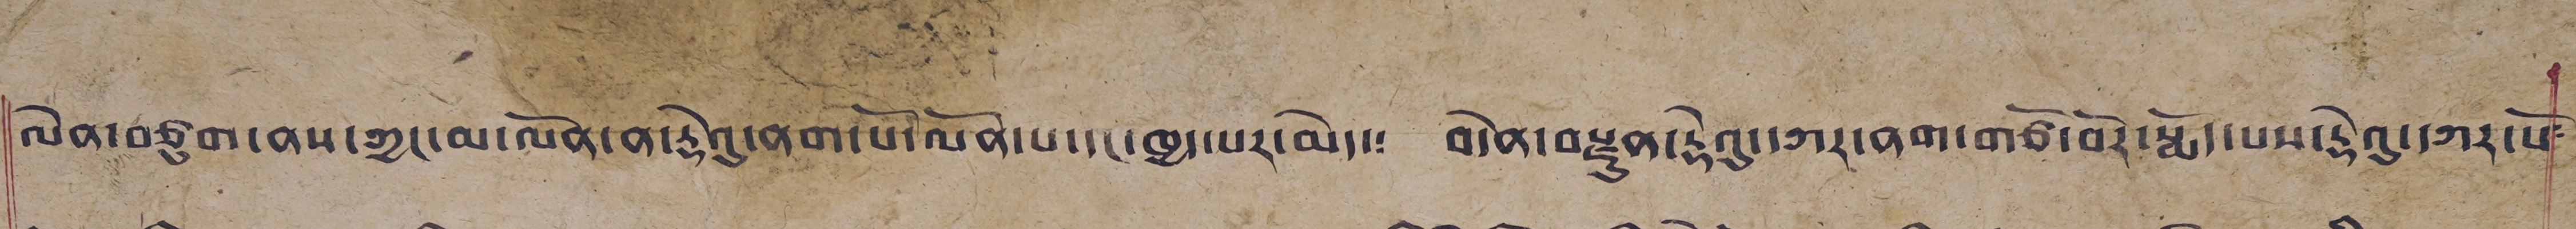ལེན་བཙུག་ནས་ཀྱང་མ་ལོན་ན་རྡེའུ་ནག་པོ་ལོན་པ་དང་ཁྱད་པར་མེད་༴ བདེན་བརྫུན་རྡེའུ་དཀར་ནག་གཙོ་བོར་སྨོད་པས་རྡེའུ་དཀར་པོ༴
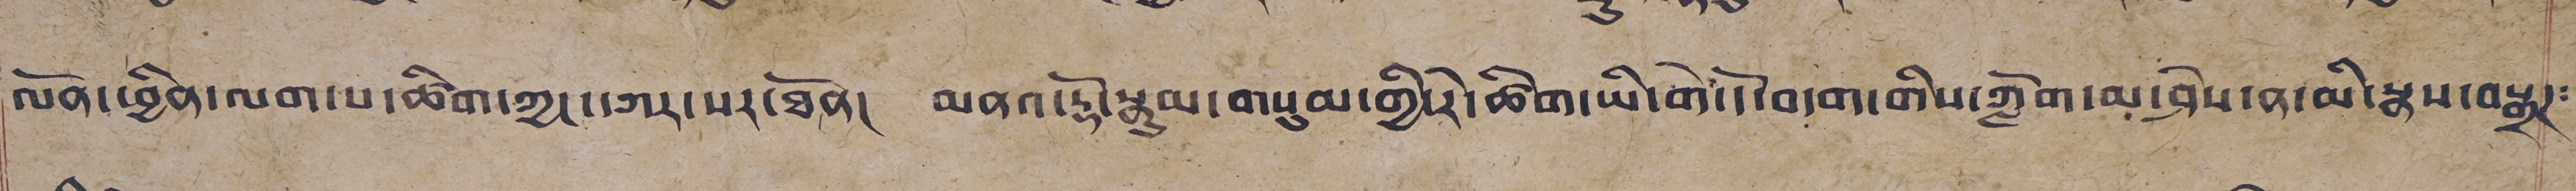ལོན་ཕྱིན་ལག་པ་ཚིག་ཀྱང་དཀར་པར་ཐོན། མནའ་རྡོ་སྣུམ་གསུམ་གྱི་རེ་ཚིག་ཡི་གེ་དོ་བདག་གིས་ཀློག་མ་ཤེས་ན་མི་སྣས་བསྒྲཊ༴
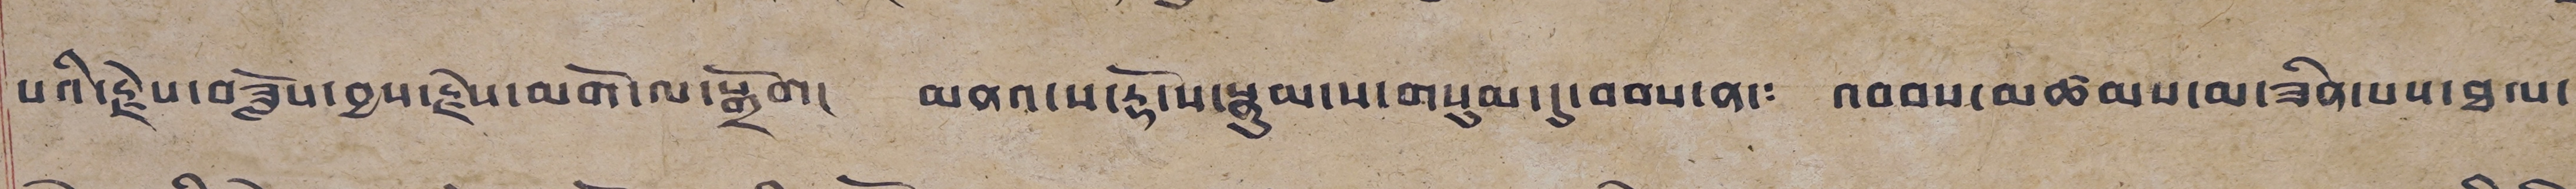པའི་རྗེས་བཟློས་བྱས་རྗེས་མགོ་ལ་སྒྲོག། མནའ་ས་རྡོ་ས་སྣུམ་ས་གསུམ་དུ་བབས་ན་༴ འབབས་མཚམས་མ་ཟིན་པས་ཐལ་
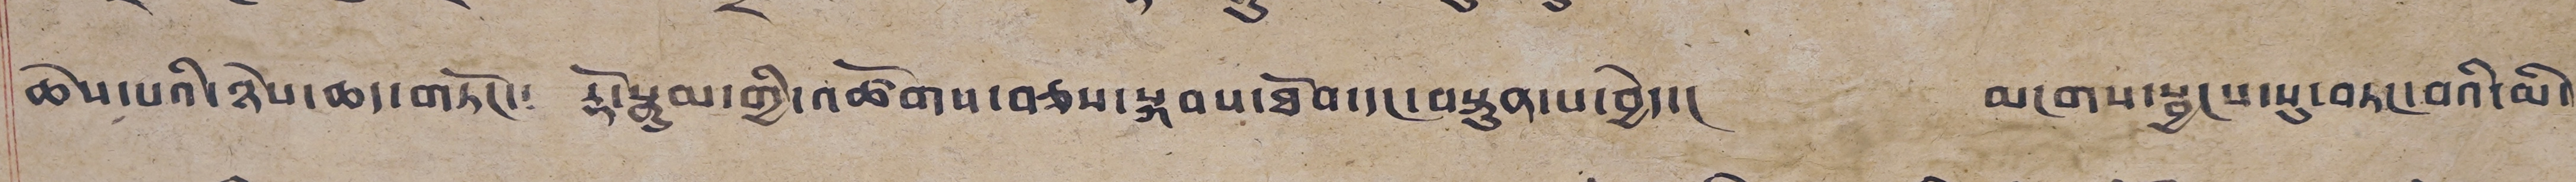ཆེས་པའི་ཉེས་ཆད་གཏོང་༴ རྡོ་སྣུམ་གྱི་འཚོགས་བཅས་སྐབས་ཐོབ་དང་བསྟུན་པ་བྱེད་། མངགས་སྦྱངས་སུ་བཏང་བའི་མི་
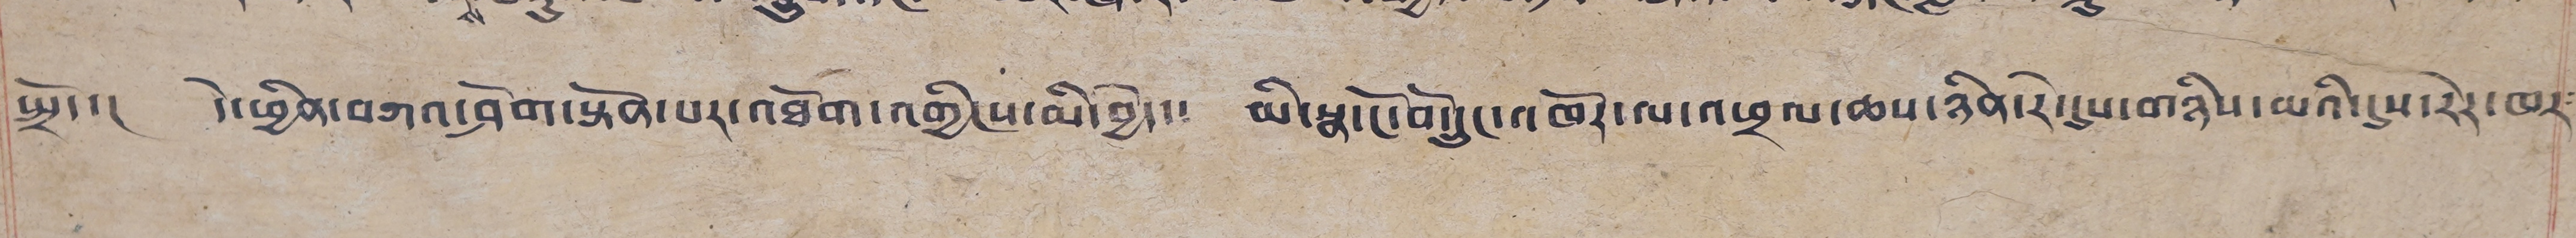སྤྲོད་། དེ་ཕྱིན་བཀའ་ཤོག་སྟོན་པར་འཐོག་འགྱིངས་མི་བྱེད་༴ མི་སྣ་ངོ་བོ་དྲུང་འཁོར་ལ་འཕྲལ་ཆས་ཉིན་རེ་དུས་གཉིས་མའི་དུས་རེར་ཁར༴
